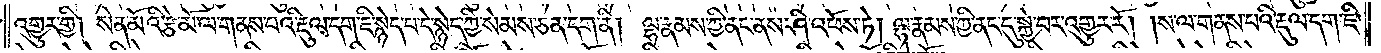འགྱུར་གྱི། སེན་མོའི་རྩེ་མོ་ལ་གནས་པའི་རྡུལ་དག་ཇི་སྙེད་པ་དེ་སྙེད་ཀྱི་སེམས་ཅན་དག་ནི། ལྷ་རྣམས་ཀྱི་ནང་ནས་ཤི་འཕོས་ཏེ། ལྷ་རྣམས་ཀྱི་ནང་དུ་སྐྱེ་བར་འགྱུར་རོ། །ས་ལ་གནས་པའི་རྡུལ་དག་ཇི་
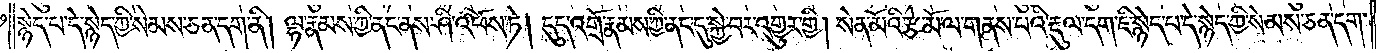སྙེད་པ་དེ་སྙེད་ཀྱི་སེམས་ཅན་དག་ནི། ལྷ་རྣམས་ཀྱི་ནང་ནས་ཤི་འཕོས་ཏེ། དུད་འགྲོ་རྣམས་ཀྱི་ནང་དུ་སྐྱེ་བར་འགྱུར་གྱི། སེན་མོའི་རྩེ་མོ་ལ་གནས་པའི་རྡུལ་དག་ཇི་སྙེད་པ་དེ་སྙེད་ཀྱི་སེམས་ཅན་དག་
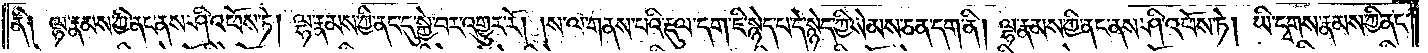ནི༏ ལྷ་རྣམས་ཀྱི་ནང་ནས་ཤི་འཕོས་ཏེ། ལྷ་རྣམས་ཀྱི་ནང་དུ་སྐྱེ་བར་འགྱུར་རོ། །ས་ལ་གནས་པའི་རྡུལ་དག་ཇི་སྙེད་པ་དེ་སྙེད་ཀྱི་སེམས་ཅན་དག་ནི། ལྷ་རྣམས་ཀྱི་ནང་ནས་ཤི་འཕོས་ཏེ། ཡི་དྭགས་རྣམས་ཀྱི་ནང་
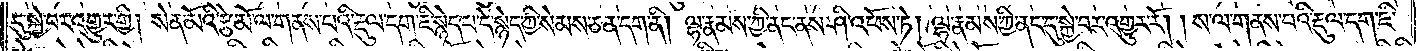དུ་སྐྱེ་བར་འགྱུར་གྱི། སེན་མོའི་རྩེ་མོ་ལ་གནས་པའི་རྡུལ་དག་ཇི་སྙེད་པ་དེ་སྙེད་ཀྱི་སེམས་ཅན་དག་ནི། ལྷ་རྣམས་ཀྱི་ནང་ནས་ཤི་འཕོས་ཏེ། ལྷ་རྣམས་ཀྱི་ནང་དུ་སྐྱེ་བར་འགྱུར་རོ། །ས་ལ་གནས་པའི་རྡུལ་དག་ཇི་
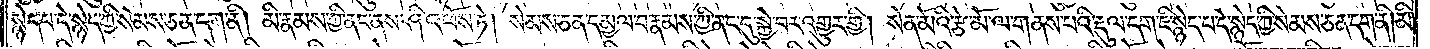སྙེད་པ་དེ་སྙེད་ཀྱི་སེམས་ཅན་དག་ནི། མི་རྣམས་ཀྱི་ནང་ནས་ཤི་འཕོས་ཏེ། སེམས་ཅན་དམྱལ་བ་རྣམས་ཀྱི་ནང་དུ་སྐྱེ་བར་འགྱུར་གྱི། སེན་མོའི་རྩེ་མོ་ལ་གནས་པའི་རྡུལ་དག་ཇི་སྙེད་པ་དེ་སྙེད་ཀྱི་སེམས་ཅན་དག་ནི། མི་
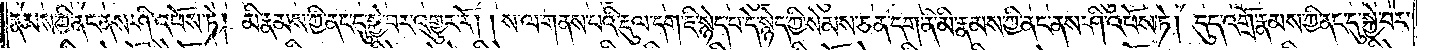རྣམས་ཀྱི་ནང་ནས་ཤི་འཕོས་ཏེ། མི་རྣམས་ཀྱི་ནང་དུ་སྐྱེ་བར་འགྱུར་རོ། །ས་ལ་གནས་པའི་རྡུལ་དག་ཇི་སྙེད་པ་དེ་སྙེད་ཀྱི་སེམས་ཅན་དག་ནི་མི་རྣམས་ཀྱི་ནང་ནས་ཤི་འཕོས་ཏེ། དུད་འགྲོ་རྣམས་ཀྱི་ནང་དུ་སྐྱེ་བར་
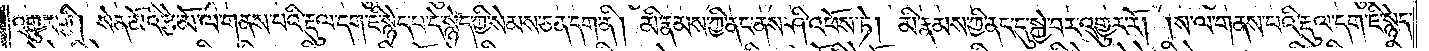འགྱུར་གྱི། སེན་མོའི་རྩེ་མོ་ལ་གནས་པའི་རྡུལ་དག་ཇི་སྙེད་པ་དེ་སྙེད་ཀྱི་སེམས་ཅན་དག་ནི། མི་རྣམས་ཀྱི་ནང་ནས་ཤི་འཕོས་ཏེ། མི་རྣམས་ཀྱི་ནང་དུ་སྐྱེ་བར་འགྱུར་རོ། །ས་ལ་གནས་པའི་རྡུལ་དག་ཇི་སྙེད་
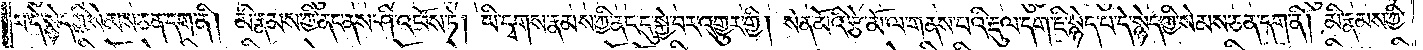པ་དེ་སྙེད་ཀྱི་སེམས་ཅན་དག་ནི། མི་རྣམས་ཀྱི་ནང་ནས་ཤི་འཕོས་ཏེ། ཡི་དྭགས་རྣམས་ཀྱི་ནང་དུ་སྐྱེ་བར་འགྱུར་གྱི། སེན་མོའི་རྩེ་མོ་ལ་གནས་པའི་རྡུལ་དག་ཇི་སྙེད་པ་དེ་སྙེད་ཀྱི་སེམས་ཅན་དག་ནི། མི་རྣམས་ཀྱི་
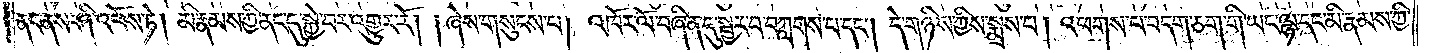ནང་ནས་ཤི་འཕོས་ཏེ། མི་རྣམས་ཀྱི་ནང་དུ་སྐྱེ་བར་འགྱུར་རོ། །ཞེས་གསུངས་པ། འཁོར་ལོ་བཞིན་དུ་སྦྱར་བ་བཀླགས་པ་དང༌། དེ་གཉིས་ཀྱིས་སྨྲས་པ། འཕགས་པ་བདག་ཅག་གི་ཡང་ལྷ་དང་མི་རྣམས་ཀྱི་
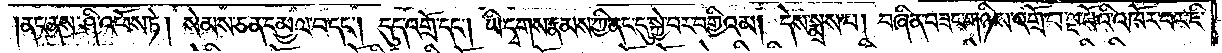།ནང་ནས་ཤི་འཕོས་ཏེ། སེམས་ཅན་དམྱལ་བ་དང༌། དུད་འགྲོ་དང༌། ཡི་དྭགས་རྣམས་ཀྱི་ནང་དུ་སྐྱེ་བར་བགྱིའམ། དེས་སྨྲས་པ། བཞིན་བཟང་གཉིས་འགྲོ་བ་ལྔ་པོའི་འཁོར་བར་ཇི་
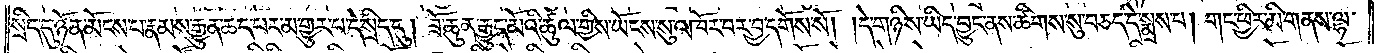སྲིད་དུ་ཉོན་མོངས་པ་རྣམས་རྒྱུན་ཆད་པར་མ་གྱུར་པ་དེ་སྲིད་དུ། ཟོ་ཆུན་རྒྱུད་མོའི་ཚུལ་གྱིས་ཡོངས་སུ་འཁོར་བར་བྱ་དགོས་སོ། །དེ་གཉིས་ཡིད་བྱུང་ནས་ཚིགས་སུ་བཅད་དེ་སྨྲས་པ། གང་ཕྱིར་མི་གནས་ལྷ་
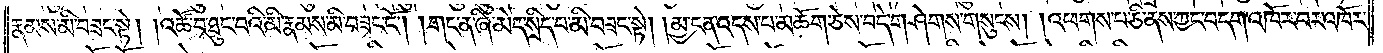རྣམས་མི་བཟང་སྟེ། །འཚོ་བ་ཐུང་བའི་མི་རྣམས་མི་བཟང་ངོ༌། །གང་ན་ཞི་མེད་སྲིད་པ་མི་བཟང་སྟེ། །མྱ་ངན་འདས་པ་མཆོག་ཅེས་བདེ་གཤེགས་གསུངས། །འཕགས་པ་ཅི་ནས་ཀྱང་བདག་འཁོར་བར་འཁོར་
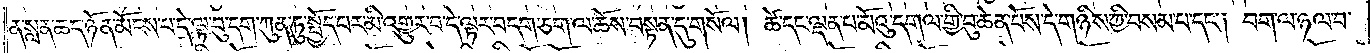ན་སླན་ཆད་ཉོན་མོངས་པ་དེ་ལྟ་བུ་དག་ཀུན་ཏུ་སྤྱོད་པར་མི་འགྱུར་བ་དེ་ལྟར་བདག་ཅག་ལ་ཆོས་བསྟན་དུ་གསོལ། ཚེ་དང་ལྡན་པ་མོའུ་དགལ་གྱི་བུ་ཆེན་པོས་དེ་གཉིས་ཀྱི་བསམ་པ་དང༌། བག་ལ་ཉལ་བ་
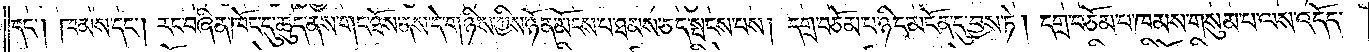དང༌། ཁམས་དང༌། རང་བཞིན་ཁོང་དུ་ཆུད་ནས་གང་ཐོས་ནས་དེ་གཉིས་ཀྱིས་ཉོན་མོངས་པ་ཐམས་ཅད་སྤངས་པས། དགྲ་བཅོམ་པ་ཉིད་མངོན་དུ་བྱས་ཏེ། དགྲ་བཅོམ་པ་ཁམས་གསུམ་པ་ལས་འདོད་
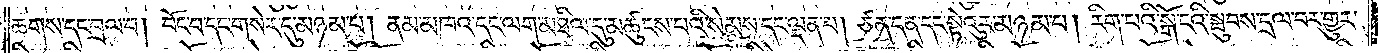ཆགས་དང་བྲལ་བ། བོང་བ་དང་གསེར་དུ་མཉམ་པ། ནམ་མཁའ་དང་ལག་མཐིལ་དུ་མཚུངས་པའི་སེམས་དང་ལྡན་པ། ཙན་དན་དང་སྟེའུར་མཉམ་པ། རིག་པའི་སྒོ་ངའི་སྦུབས་དྲལ་བར་གྱུར་
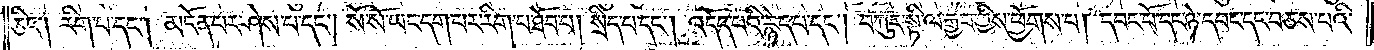ཅིང༌། རིག་པ་དང༌། མངོན་པར་ཤེས་པ་དང༌། སོ་སོ་ཡང་དག་པར་རིག་པ་ཐོབ་པ། སྲིད་པ་དང༌། འདོད་པའི་རྙེད་པ་དང༌། བཀུར་སྟི་ལ་རྒྱབ་ཀྱིས་ཕྱོགས་པ། དབང་པོ་དང་ཉེ་དབང་དང་བཅས་པའི་
